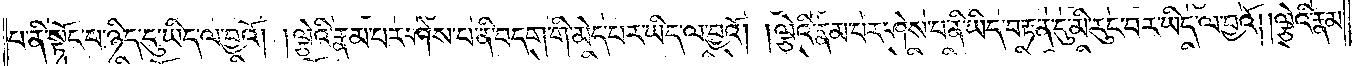པ་ནི་སྟོང་པ་ཉིད་དུ་ཡིད་ལ་བྱའོ། །ལྕེའི་རྣམ་པར་ཤེས་པ་ནི་བདག་གི་མེད་པར་ཡིད་ལ་བྱའོ། །ལྕེའི་རྣམ་པར་ཤེས་པ་ནི་ཡིད་བརྟན་དུ་མི་རུང་བར་ཡིད་ལ་བྱའོ། །ལྕེའི་རྣམ་
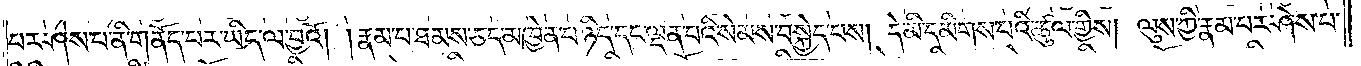པར་ཤེས་པ་ནི་གནོད་པར་ཡིད་ལ་བྱའོ། །རྣམ་པ་ཐམས་ཅད་མཁྱེན་པ་ཉིད་དང་ལྡན་པའི་སེམས་བསྐྱེད་པས། དེ་མི་དམིགས་པའི་ཚུལ་གྱིས། ལུས་ཀྱི་རྣམ་པར་ཤེས་པ་
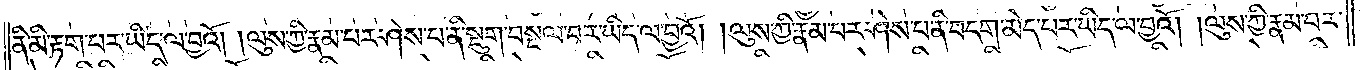ནི་མི་རྟག་པར་ཡིད་ལ་བྱའོ། །ལུས་ཀྱི་རྣམ་པར་ཤེས་པ་ནི་སྡུག་བསྔལ་བར་ཡིད་ལ་བྱའོ། །ལུས་ཀྱི་རྣམ་པར་ཤེས་པ་ནི་བདག་མེད་པར་ཡིད་ལ་བྱའོ། །ལུས་ཀྱི་རྣམ་པར་
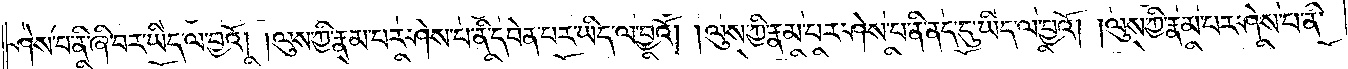ཤེས་པ་ནི་ཞི་བར་ཡིད་ལ་བྱའོ། །ལུས་ཀྱི་རྣམ་པར་ཤེས་པ་ནི་དབེན་པར་ཡིད་ལ་བྱའོ། །ལུས་ཀྱི་རྣམ་པར་ཤེས་པ་ནི་ནང་དུ་ཡིད་ལ་བྱའོ། །ལུས་ཀྱི་རྣམ་པར་ཤེས་པ་ནི་
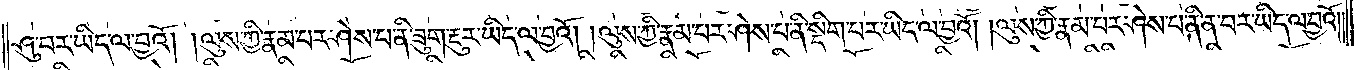ཤུ་བར་ཡིད་ལ་བྱའོ། །ལུས་ཀྱི་རྣམ་པར་ཤེས་པ་ནི་ཟུག་རྔུར་ཡིད་ལ་བྱའོ། །ལུས་ཀྱི་རྣམ་པར་ཤེས་པ་ནི་སྡིག་པར་ཡིད་ལ་བྱའོ། །ལུས་ཀྱི་རྣམ་པར་ཤེས་པ་ནི་ན་བར་ཡིད་ལ་བྱའོ། །
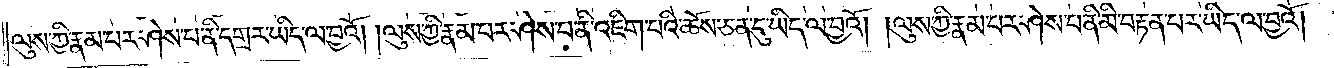ལུས་ཀྱི་རྣམ་པར་ཤེས་པ་ནི་དགྲར་ཡིད་ལ་བྱའོ། །ལུས་ཀྱི་རྣམ་པར་ཤེས་པ་ནི་འཇིག་པའི་ཆོས་ཅན་དུ་ཡིད་ལ་བྱའོ། །ལུས་ཀྱི་རྣམ་པར་ཤེས་པ་ནི་མི་བརྟན་པར་ཡིད་ལ་བྱའོ། །
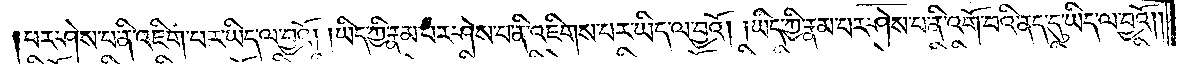པར་ཤེས་པ་ནི་འཇིག་པར་ཡིད་ལ་བྱའོ། །ཡིད་ཀྱི་རྣམ་པར་ཤེས་པ་ནི་འཇིགས་པར་ཡིད་ལ་བྱའོ། །ཡིད་ཀྱི་རྣམ་པར་ཤེས་པ་ནི་འགོ་བའི་ནད་དུ་ཡིད་ལ་བྱའོ། །
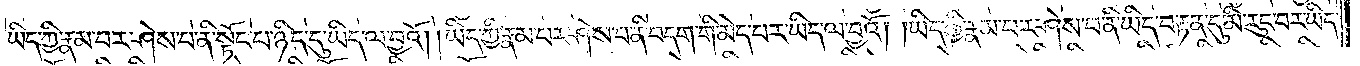ཡིད་ཀྱི་རྣམ་པར་ཤེས་པ་ནི་སྟོང་པ་ཉིད་དུ་ཡིད་ལ་བྱའོ། །ཡིད་ཀྱི་རྣམ་པར་ཤེས་པ་ནི་བདག་གི་མེད་པར་ཡིད་ལ་བྱའོ། །ཡིད་ཀྱི་རྣམ་པར་ཤེས་པ་ནི་ཡིད་བརྟན་དུ་མི་རུང་བར་ཡིད་
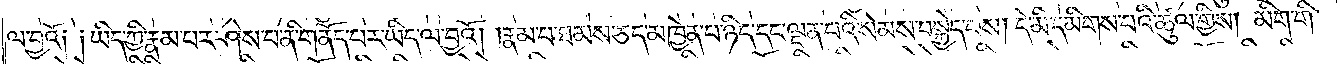ལ་བྱའོ༏ ༏ཡིད་ཀྱི་རྣམ་པར་ཤེས་པ་ནི་གནོད་པར་ཡིད་ལ་བྱའོ། །རྣམ་པ་ཐམས་ཅད་མཁྱེན་པ་ཉིད་དང་ལྡན་པའི་སེམས་བསྐྱེད་པས། དེ་མི་དམིགས་པའི་ཚུལ་གྱིས། མིག་གི་
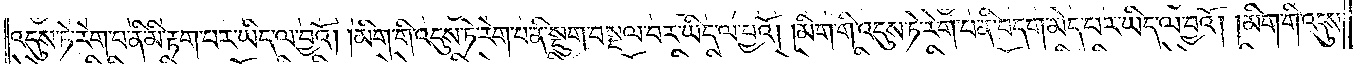འདུས་ཏེ་རེག་པ་ནི་མི་རྟག་པར་ཡིད་ལ་བྱའོ། །མིག་གི་འདུས་ཏེ་རེག་པ་ནི་སྡུག་བསྔལ་བར་ཡིད་ལ་བྱའོ། །མིག་གི་འདུས་ཏེ་རེག་པ་ནི་བདག་མེད་པར་ཡིད་ལ་བྱའོ། །མིག་གི་འདུས་
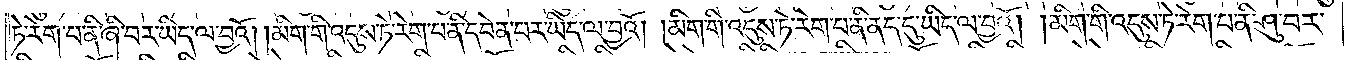ཏེ་རེག་པ་ནི་ཞི་བར་ཡིད་ལ་བྱའོ། །མིག་གི་འདུས་ཏེ་རེག་པ་ནི་དབེན་པར་ཡིད་ལ་བྱའོ། །མིག་གི་འདུས་ཏེ་རེག་པ་ནི་ནད་དུ་ཡིད་ལ་བྱའོ། །མིག་གི་འདུས་ཏེ་རེག་པ་ནི་ཤུ་བར་
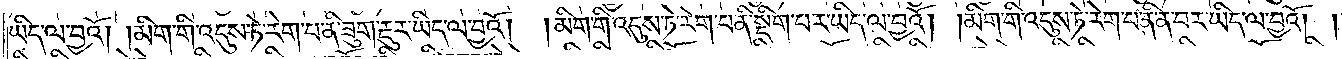ཡིད་ལ་བྱའོ། །མིག་གི་འདུས་ཏེ་རེག་པ་ནི་ཟུག་རྔུར་ཡིད་ལ་བྱའོ། །མིག་གི་འདུས་ཏེ་རེག་པ་ནི་སྡིག་པར་ཡིད་ལ་བྱའོ། །མིག་གི་འདུས་ཏེ་རེག་པ་ནི་ན་བར་ཡིད་ལ་བྱའོ། །
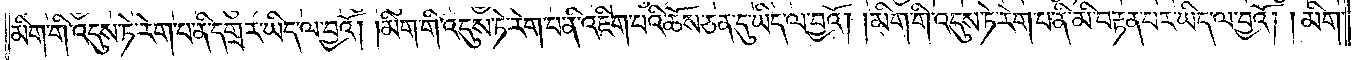མིག་གི་འདུས་ཏེ་རེག་པ་ནི་དགྲར་ཡིད་ལ་བྱའོ། །མིག་གི་འདུས་ཏེ་རེག་པ་ནི་འཇིག་པའི་ཆོས་ཅན་དུ་ཡིད་ལ་བྱའོ། །མིག་གི་འདུས་ཏེ་རེག་པ་ནི་མི་བརྟན་པར་ཡིད་ལ་བྱའོ། །མིག་
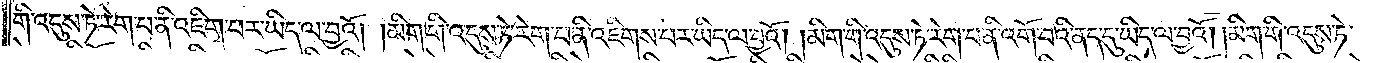གི་འདུས་ཏེ་རེག་པ་ནི་འཇིག་པར་ཡིད་ལ་བྱའོ། །མིག་གི་འདུས་ཏེ་རེག་པ་ནི་འཇིགས་པར་ཡིད་ལ་བྱའོ། །མིག་གི་འདུས་ཏེ་རེག་པ་ནི་འགོ་བའི་ནང་དུ་ཡིད་ལ་བྱའོ། །མིག་གི་འདུས་ཏེ་
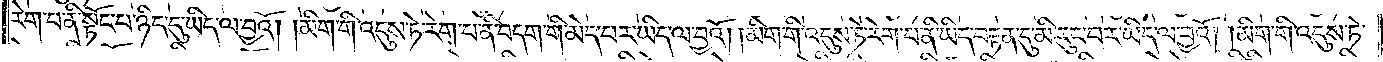རེག་པ་ནི་སྟོང་པ་ཉིད་དུ་ཡིད་ལ་བྱའོ། །མིག་གི་འདུས་ཏེ་རེག་པ་ནི་བདག་གི་མེད་པར་ཡིད་ལ་བྱའོ། །མིག་གི་འདུས་ཏེ་རེག་པ་ནི་ཡིད་བརྟན་དུ་མི་རུང་བར་ཡིད་ལ་བྱའོ། །མིག་གི་འདུས་ཏེ་
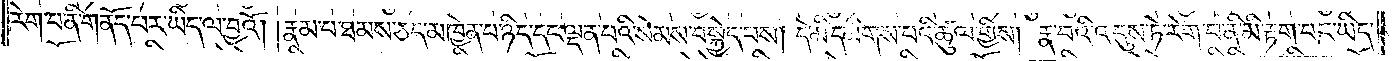རེག་པ་ནི་གནོད་པར་ཡིད་ལ་བྱའོ། །རྣམ་པ་ཐམས་ཅད་མཁྱེན་པ་ཉིད་དང་ལྡན་པའི་སེམས་བསྐྱེད་པས། དེ་མི་དམིགས་པའི་ཚུལ་གྱིས། རྣ་བའི་འདུས་ཏེ་རེག་པ་ནི་མི་རྟག་པར་ཡིད་
